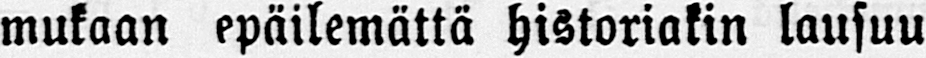mukaan epäilemättä historiakin lausuu
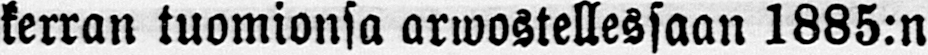kerran tuomionsa arwostellessaan 1885:n
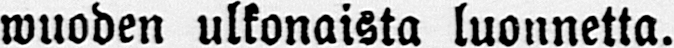wuoden ulkonaista luonnetta.
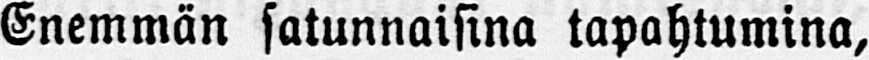Enemmän satunnaisina tapahtumina,
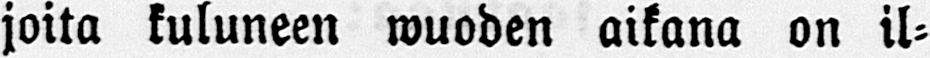joita kuluneen muoden aikana on il-
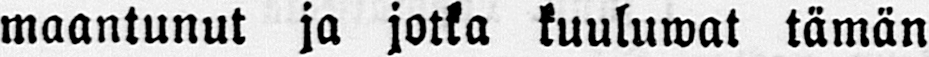maantunut ja jotka kuuluwat tämän
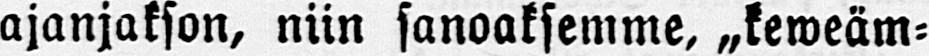ajanjakson, niin sanoaksemme, „keweäm-
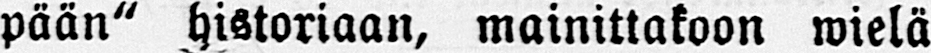pään" historiaan, mainittakoon wielä
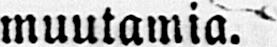muutamia.
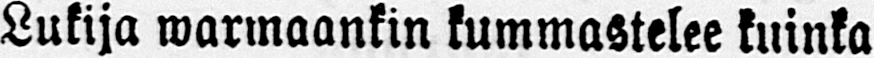Lukija mannaankin kummastelee kuinka
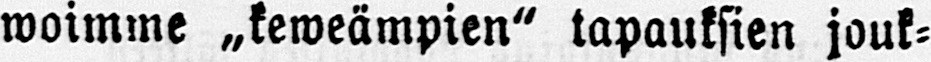woimme „keweämpien" tapauksien jouk-
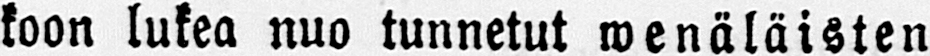koon lukea nuo tunnetut wenäläisten
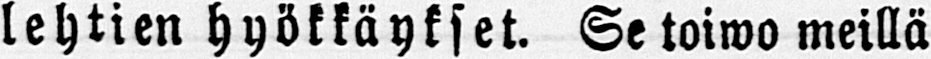lehtien hyökkäykset. Se toiwo meillä
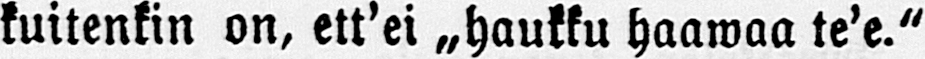kuitenkin on, ett'ei „haukku haawaa te'e."
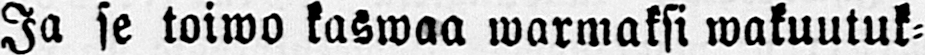Ja se toiwo kaswaa marinaksi wakuutuk-
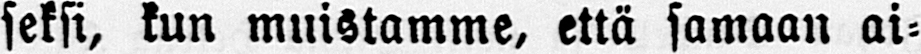seksi, kun muistamme, että samaan ai-
